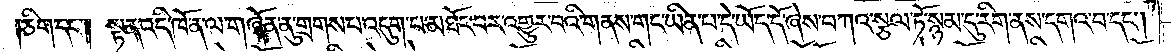།ཅིག་དང༌། སྟན་འདི་ཁོ་ན་ལ་གཞོན་ནུ་གྲགས་པ་འདུག་པ་མཐོང་བར་འགྱུར་བའི་གནས་གང་ཡིན་པ་དེ་ཡོད་དོ་ཞེས་བཀའ་སྩལ་ཏོ་སྙམ་དུ་རིག་ནས་དགའ་བ་དང༌།
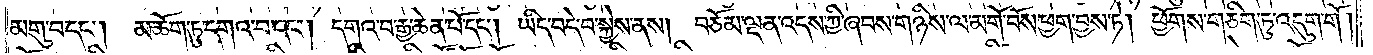མགུ་བ་དང༌།  མཆོག་ཏུ་དགའ་བ་དང༌། དགའ་བ་རྒྱ་ཆེན་པོ་དང༌། ཡིད་བདེ་བ་སྐྱེས་ནས། བཅོམ་ལྡན་འདས་ཀྱི་ཞབས་གཉིས་ལ་མགོ་བོས་ཕྱག་བྱས་ཏེ། ཕྱོགས་གཅིག་ཏུ་འདུག་གོ།
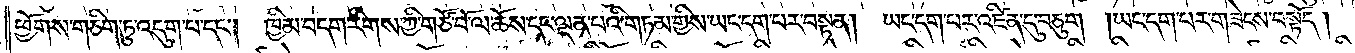ཕྱོགས་གཅིག་ཏུ་འདུག་པ་དང༌། ཁྱིམ་བདག་རིགས་ཀྱི་གཙོ་བོ་ལ་ཆོས་དང་ལྡན་པའི་གཏམ་གྱིས་ཡང་དག་པར་བསྟན། ཡང་དག་པར་འཛིན་དུ་བཅུག །ཡང་དག་པར་གཟེངས་བསྟོད།
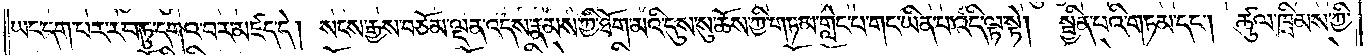ཡང་དག་པར་རབ་ཏུ་དགའ་བར་མཛད་དེ། སངས་རྒྱས་བཅོམ་ལྡན་འདས་རྣམས་ཀྱི་ཐོག་མའི་དུས་སུ་ཆོས་ཀྱི་གཏམ་གླེང་པ་གང་ཡིན་པ་འདི་ལྟ་སྟེ། སྦྱིན་པའི་གཏམ་དང༌། ཚུལ་ཁྲིམས་ཀྱི་
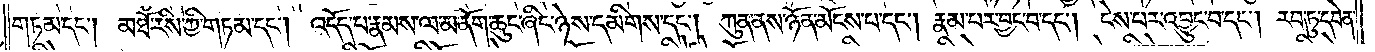གཏམ་དང༌། མཐོ་རིས་ཀྱི་གཏམ་དང༌། འདོད་པ་རྣམས་ལ་མནོག་ཆུང་ཞིང་ཉེས་དམིགས་དང༌། ཀུན་ནས་ཉོན་མོངས་པ་དང༌། རྣམ་པར་བྱང་བ་དང༌། ངེས་པར་འབྱུང་བ་དང༌། རབ་ཏུ་དབེན་
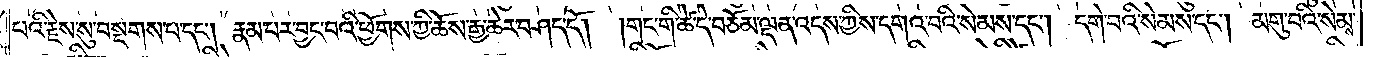པའི་རྗེས་སུ་བསྔགས་པ་དང༌། རྣམ་པར་བྱང་བའི་ཕྱོགས་ཀྱི་ཆོས་རྒྱ་ཆེར་བཤད་དོ།  །གང་གི་ཚེ་དེ་བཅོམ་ལྡན་འདས་ཀྱིས་དགའ་བའི་སེམས་དང༌། དགེ་བའི་སེམས་དང༌། མགུ་བའི་སེམས་
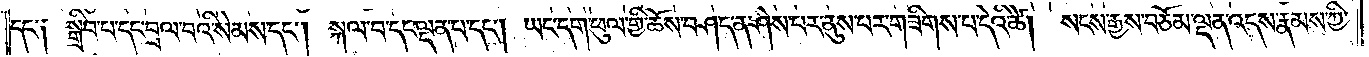དང༌༑  སྒྲིབ་པ་དང་བྲལ་བའི་སེམས་དང༌། སྐལ་བ་དང་ལྡན་པ་དང༌། ཡང་དག་ཕུལ་གྱི་ཆོས་བཤད་ན་ཤེས་པར་ནུས་པར་གཟིགས་པ་དེའི་ཚེ། སངས་རྒྱས་བཅོམ་ལྡན་འདས་རྣམས་ཀྱི་
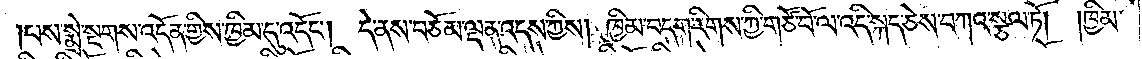པས་སྨྲེ་སྔགས་འདོན་གྱིས་ཁྱིམ་དུ་འདོང༌། དེ་ནས་བཅོམ་ལྡན་འདས་ཀྱིས། ཁྱིམ་བདག་རིགས་ཀྱི་གཙོ་བོ་ལ་འདི་སྐད་ཅེས་བཀའ་སྩལ་ཏོ། །ཁྱིམ་
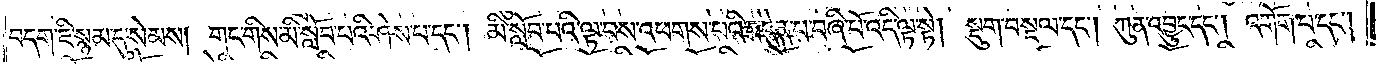བདག་ཇི་སྙམ་དུ་སེམས། གང་གིས་མི་སློབ་པའི་ཤེས་པ་དང༌། མི་སློབ་པའི་ལྟ་བས་འཕགས་པའི་བདེན་པ་བཞི་པོ་འདི་ལྟ་སྟེ། སྡུག་བསྔལ་དང༌། ཀུན་འབྱུང་དང༌། འགོག་པ་དང༌།
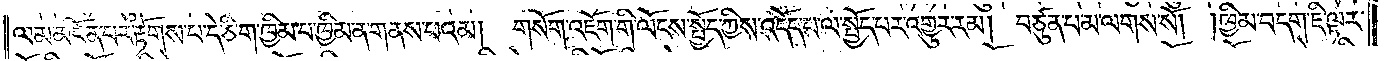ལམ་མངོན་པར་རྟོགས་པ་དེ་ཅིག་ཁྱིམ་པ་ཁྱིམ་ན་གནས་པའམ། གསོག་འཇོག་གི་ལོངས་སྤྱོད་ཀྱིས་འདོད་པ་ལ་སྤྱོད་པར་འགྱུར་རམ། བཙུན་པ་མ་ལགས་སོ། །ཁྱིམ་བདག་ཇི་ལྟར་
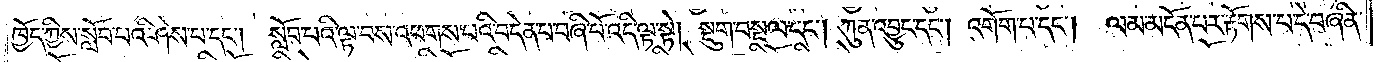ཁྱོད་ཀྱིས་སློབ་པའི་ཤེས་པ་དང༌། སློབ་པའི་ལྟ་བས་འཕགས་པའི་བདེན་པ་བཞི་པོ་འདི་ལྟ་སྟེ། སྡུག་བསྔལ་དང༌། ཀུན་འབྱུང་དང༌། འགོག་པ་དང༌། ལམ་མངོན་པར་རྟོགས་པ་དེ་བཞིན་
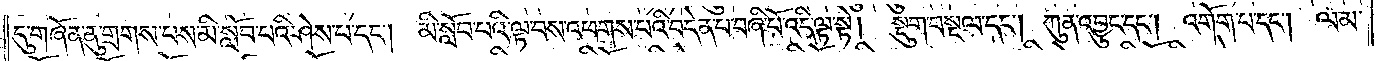དུ་གཞོན་ནུ་གྲགས་པས་མི་སློབ་པའི་ཤེས་པ་དང༌། མི་སློབ་པའི་ལྟ་བས་འཕགས་པའི་བདེན་པ་བཞི་པོ་འདི་ལྟ་སྟེ།  སྡུག་བསྔལ་དང༌། ཀུན་འབྱུང་དང༌། འགོག་པ་དང༌། ལམ་
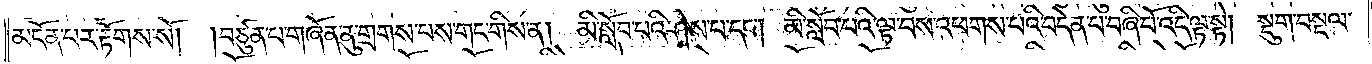མངོན་པར་རྟོགས་སོ། །བཙུན་པ་གཞོན་ནུ་གྲགས་པས་གང་གིས་ན། མི་སློབ་པའི་ཤེས་པ་དང༌། མི་སློབ་པའི་ལྟ་བས་འཕགས་པའི་བདེན་པ་བཞི་པོ་འདི་ལྟ་སྟེ། སྡུག་བསྔལ་
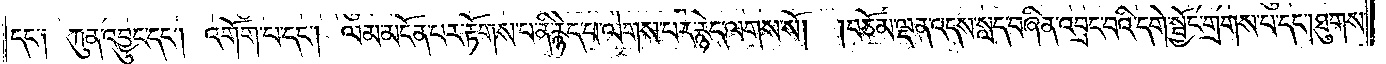དང༌། ཀུན་འབྱུང་དང༌། འགོག་པ་དང༌། ལམ་མངོན་པར་རྟོགས་པ་ནི་རྙེད་པ་ལེགས་པར་རྙེད་ལགས་སོ། །བཅོམ་ལྡན་འདས་སླད་བཞིན་འབྲང་བའི་དགེ་སྦྱོང་གྲགས་པ་དང༌། ཐུགས་
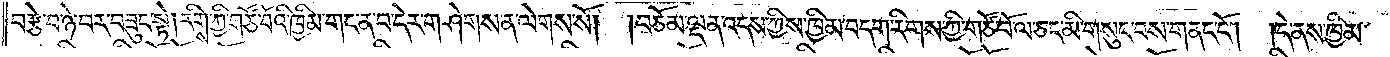བརྩེ་བ་ཉེ་བར་བཟུང་སྟེ།རིགས་ཀྱི་གཙོ་བོའི་ཁྱིམ་གང་ན་བ་དེར་གཤེགས་ན་ལེགས་སོ། །བཅོམ་ལྡན་འདས་ཀྱིས་ཁྱིམ་བདག་རིགས་ཀྱི་གཙོ་བོ་ལ་ཅང་མི་གསུང་བས་གནང་ངོ༌།  །དེ་ནས་ཁྱིམ་
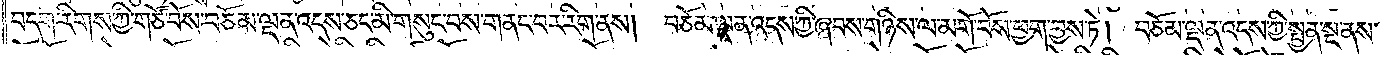བདག་རིགས་ཀྱི་གཙོ་བོས་བཅོམ་ལྡན་འདས་ཅང་མི་གསུང་བས་གནང་བར་རིག་ནས། བཅོམ་ལྡན་འདས་ཀྱི་ཞབས་གཉིས་ལ་མགོ་བོས་ཕྱག་བྱས་ཏེ། བཅོམ་ལྡན་འདས་ཀྱི་སྤྱན་སྔ་ནས་
